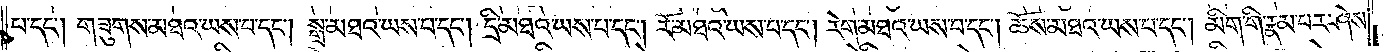པ་དང༌། གཟུགས་མཐའ་ཡས་པ་དང༌། སྒྲ་མཐའ་ཡས་པ་དང༌། དྲི་མཐའ་ཡས་པ་དང༌། རོ་མཐའ་ཡས་པ་དང༌། རེག་མཐའ་ཡས་པ་དང༌། ཆོས་མཐའ་ཡས་པ་དང༌། མིག་གི་རྣམ་པར་ཤེས་
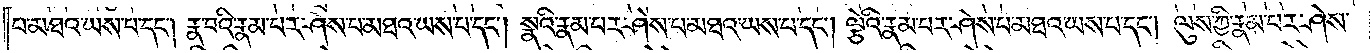པ་མཐའ་ཡས་པ་དང༌། རྣ་བའི་རྣམ་པར་ཤེས་པ་མཐའ་ཡས་པ་དང༌། སྣའི་རྣམ་པར་ཤེས་པ་མཐའ་ཡས་པ་དང༌། ལྕེའི་རྣམ་པར་ཤེས་པ་མཐའ་ཡས་པ་དང༌། ལུས་ཀྱི་རྣམ་པར་ཤེས་
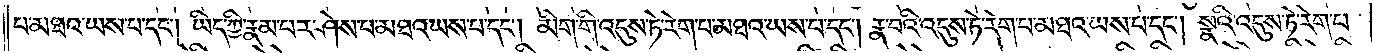པ་མཐའ་ཡས་པ་དང༌། ཡིད་ཀྱི་རྣམ་པར་ཤེས་པ་མཐའ་ཡས་པ་དང༌། མིག་གི་འདུས་ཏེ་རེག་པ་མཐའ་ཡས་པ་དང༌། རྣ་བའི་འདུས་ཏེ་རེག་པ་མཐའ་ཡས་པ་དང༌། སྣའི་འདུས་ཏེ་རེག་པ་
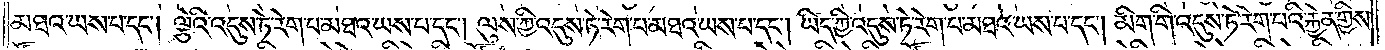མཐའ་ཡས་པ་དང༌། ལྕེའི་འདུས་ཏེ་རེག་པ་མཐའ་ཡས་པ་དང༌། ལུས་ཀྱི་འདུས་ཏེ་རེག་པ་མཐའ་ཡས་པ་དང༌། ཡིད་ཀྱི་འདུས་ཏེ་རེག་པ་མཐའ་ཡས་པ་དང༌། མིག་གི་འདུས་ཏེ་རེག་པའི་རྐྱེན་གྱིས་
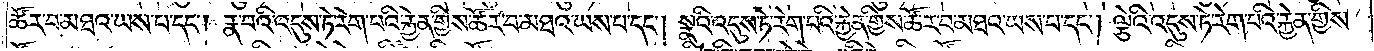ཚོར་བ་མཐའ་ཡས་པ་དང༌། རྣ་བའི་འདུས་ཏེ་རེག་པའི་རྐྱེན་གྱིས་ཚོར་བ་མཐའ་ཡས་པ་དང༌། སྣའི་འདུས་ཏེ་རེག་པའི་རྐྱེན་གྱིས་ཚོར་བ་མཐའ་ཡས་པ་དང༌། ལྕེའི་འདུས་ཏེ་རེག་པའི་རྐྱེན་གྱིས་
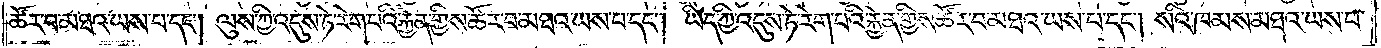ཚོར་བ་མཐའ་ཡས་པ་དང༌། ལུས་ཀྱི་འདུས་ཏེ་རེག་པའི་རྐྱེན་གྱིས་ཚོར་བ་མཐའ་ཡས་པ་དང༌། ཡིད་ཀྱི་འདུས་ཏེ་རེག་པའི་རྐྱེན་གྱིས་ཚོར་བ་མཐའ་ཡས་བ་དང༌། སའི་ཁམས་མཐའ་ཡས་པ་
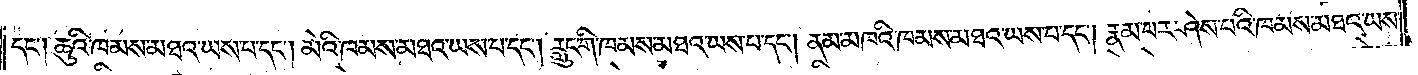དང༌། ཆུའི་ཁམས་མཐའ་ཡས་པ་དང༌། མེའི་ཁམས་མཐའ་ཡས་པ་དང༌། རླུང་གི་ཁམས་མཐའ་ཡས་པ་དང༌། ནམ་མཁའི་ཁམས་མཐའ་ཡས་པ་དང༌། རྣམ་པར་ཤེས་པའི་ཁམས་མཐའ་ཡས་
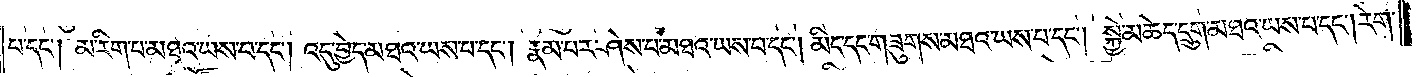པ་དང༌། མ་རིག་པ་མཐའ་ཡས་པ་དང༌། འདུ་བྱེད་མཐའ་ཡས་པ་དང༌། རྣམ་པར་ཤེས་པ་མཐའ་ཡས་པ་དང༌། མིང་དང་གཟུགས་མཐའ་ཡས་པ་དང༌། སྐྱེ་མཆེད་དྲུག་མཐའ་ཡས་པ་དང༌། རེག་
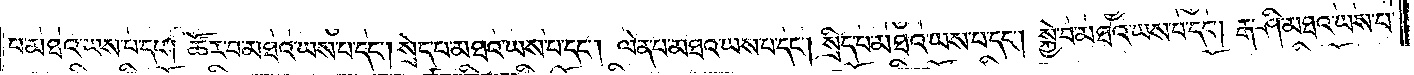པ་མཐའ་ཡས་པ་དང༌། ཚོར་བ་མཐའ་ཡས་པ་དང༌། སྲེད་པ་མཐའ་ཡས་པ་དང༌། ལེན་པ་མཐའ་ཡས་པ་དང༌། སྲིད་པ་མཐའ་ཡས་པ་དང༌། སྐྱེ་བ་མཐའ་ཡས་པ་དང༌། རྒ་ཤི་མཐའ་ཡས་པ་
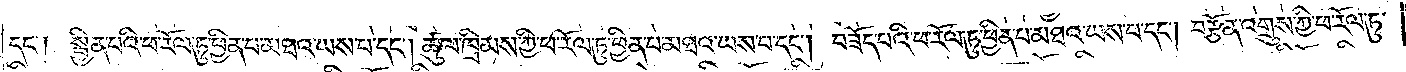དང༌། སྦྱིན་པའི་ཕ་རོལ་ཏུ་ཕྱིན་པ་མཐའ་ཡས་པ་དང༌། ཚུལ་ཁྲིམས་ཀྱི་ཕ་རོལ་ཏུ་ཕྱིན་པ་མཐའ་ཡས་པ་དང༌། བཟོད་པའི་ཕ་རོལ་ཏུ་ཕྱིན་པ་མཐའ་ཡས་པ་དང༌། བརྩོན་འགྲུས་ཀྱི་ཕ་རོལ་ཏུ་
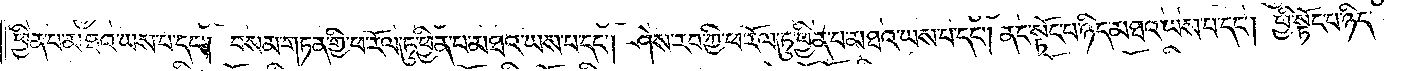ཕྱིན་པ་མཐའ་ཡས་པ་དང༌། །བསམ་གཏན་གྱི་ཕ་རོལ་ཏུ་ཕྱིན་པ་མཐའ་ཡས་པ་དང༌། ཤེས་རབ་ཀྱི་ཕ་རོལ་ཏུ་ཕྱིན་པ་མཐའ་ཡས་པ་དང༌། ནང་སྟོང་པ་ཉིད་མཐའ་ཡས་པ་དང༌། ཕྱི་སྟོང་པ་ཉིད་
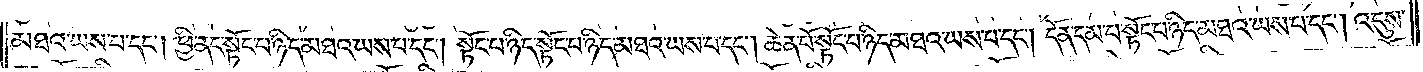མཐའ་ཡས་པ་དང༌། ཕྱི་ནང་སྟོང་པ་ཉིད་མཐའ་ཡས་པ་དང༌། སྟོང་པ་ཉིད་སྟོང་པ་ཉིད་མཐའ་ཡས་པ་དང༌། ཆེན་པོ་སྟོང་པ་ཉིད་མཐའ་ཡས་པ་དང༌། དོན་དམ་པ་སྟོང་པ་ཉིད་མཐའ་ཡས་པ་དང༌། འདུས་
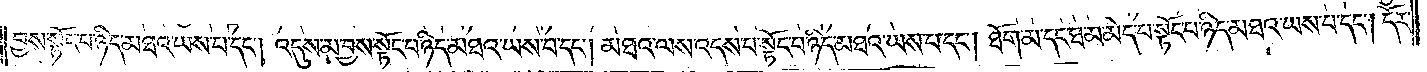བྱས་སྟོང་པ་ཉིད་མཐའ་ཡས་པ་དང༌། འདུས་མ་བྱས་སྟོང་པ་ཉིད་མཐའ་ཡས་པ་དང༌། མཐའ་ལས་འདས་པ་སྟོང་པ་ཉིད་མཐའ་ཡས་པ་དང༌། ཐོག་མ་དང་ཐ་མ་མེད་པ་སྟོང་པ་ཉིད་མཐའ་ཡས་པ་དང༌། དོར་
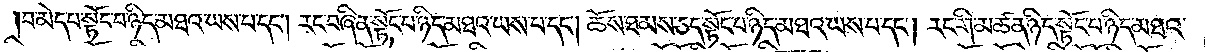བ་མེད་པ་སྟོང་པ་ཉིད་མཐའ་ཡས་པ་དང༌། རང་བཞིན་སྟོང་པ་ཉིད་མཐའ་ཡས་པ་དང༌། ཆོས་ཐམས་ཅད་སྟོང་པ་ཉིད་མཐའ་ཡས་པ་དང༌། རང་གི་མཚན་ཉིད་སྟོང་པ་ཉིད་མཐའ་
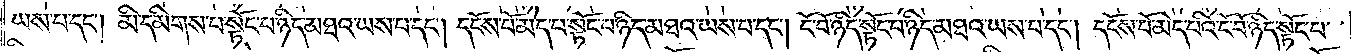ཡས་པ་དང༌། མི་དམིགས་པ་སྟོང་པ་ཉིད་མཐའ་ཡས་པ་དང༌། དངོས་པོ་མེད་པ་སྟོང་པ་ཉིད་མཐའ་ཡས་པ་དང༌། ངོ་བོ་ཉིད་སྟོང་པ་ཉིད་མཐའ་ཡས་པ་དང༌། དངོས་པོ་མེད་པའི་ངོ་བོ་ཉིད་སྟོང་པ་
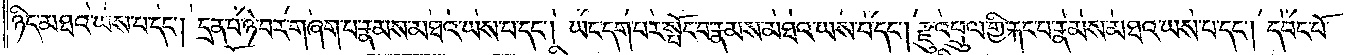ཉིད་མཐའ་ཡས་པ་དང༌། དྲན་པ་ཉེ་བར་གཞག་པ་རྣམས་མཐའ་ཡས་པ་དང༌། ཡང་དག་པར་སྤོང་བ་རྣམས་མཐའ་ཡས་པ་དང༌། རྫུ་འཕྲུལ་གྱི་རྐང་པ་རྣམས་མཐའ་ཡས་པ་དང༌། དབང་པོ་
